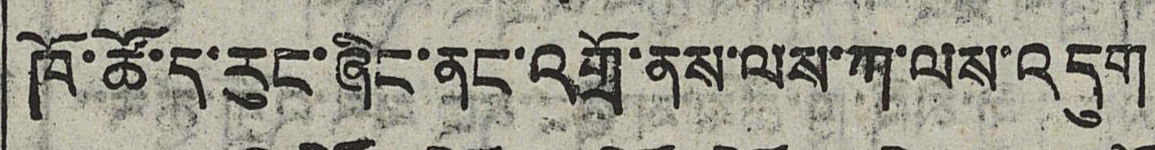ཁོ་ཚོ་ད་རུང་ཞིང་ནང་འགྲོ་ནས་ལས་ཀ་ལས་འདུག
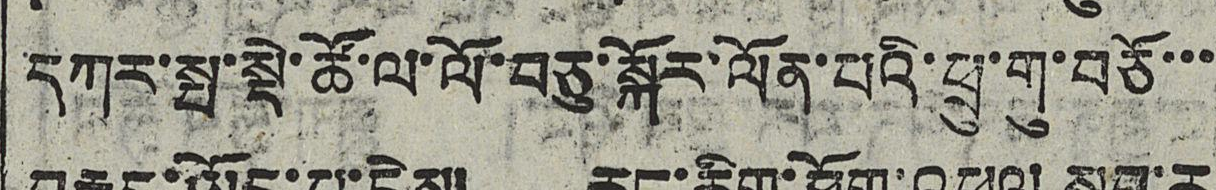དཀར་སྤ་སྡེ་ཚོ་ལ་ལོ་བཅུ་སྐོར་ལོན་པའི་ཕྲུ་གུ་བཅོ་་་
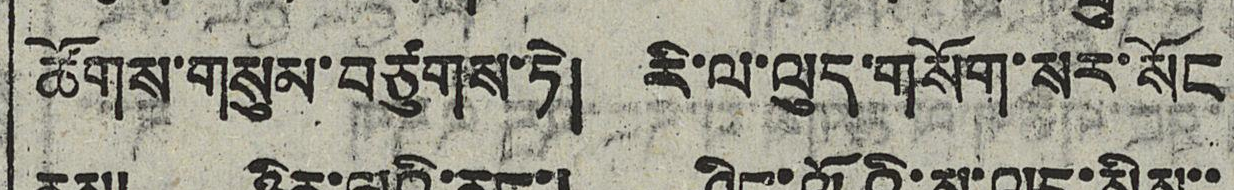ཚོགས་གསུམ་བཙུགས་ཏེ། རི་ལ་ལུད་གསོག་སར་སོང
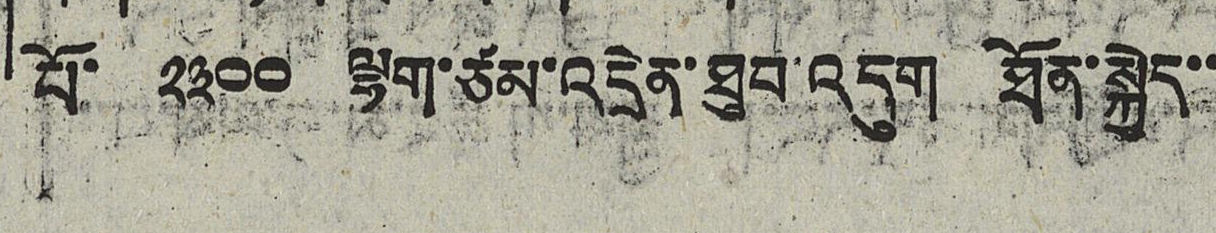པོ་ ༢༣༠༠ ལྷག་ཙམ་འདྲེན་ཐུབ་འདུག ཐོན་སྐྱེད་་
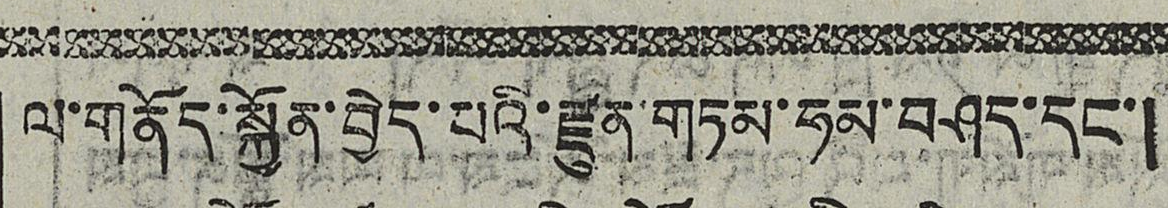གོད་སྐྱོན་བྱེད་འི་རེ་དན་ས་བསོད་དང་།
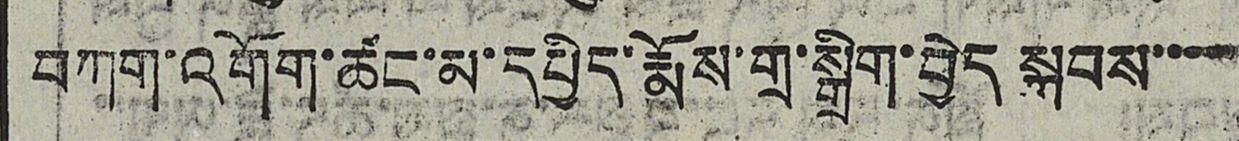བཀག་འགོག་ཚང་མ་དཔྱིད་རྨོས་གྲྭ་སྒྲིག་བྱེད སྐབས་་་་
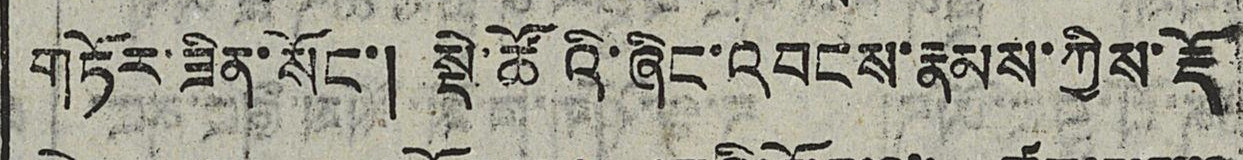གཏོར་ཟིན་སོང་། སྡེ་ཚོའི་ཞིང་འབངས་རྣམས་ཀྱིས་རྡོ
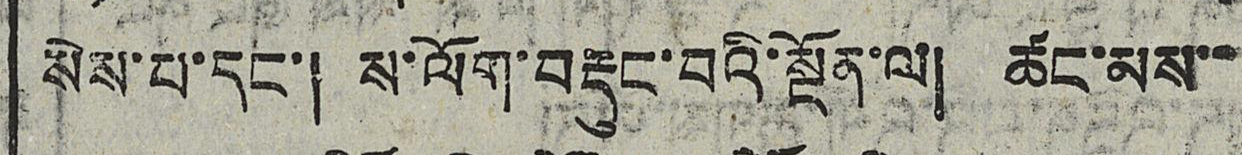སེས་པ་དང་། ས་ལོག་བརྡུང་བའི་སྔོན་ལ། ཚང་མས་་
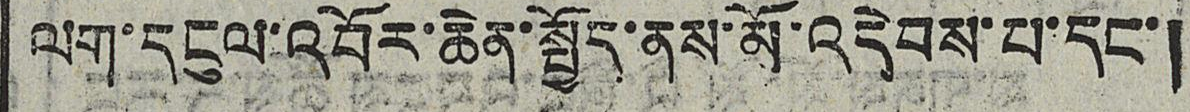ལག་དངུལ་འབོར་ཆེན་སྤྱོད་ནས་མོ་འདེབས་པ་དང་།
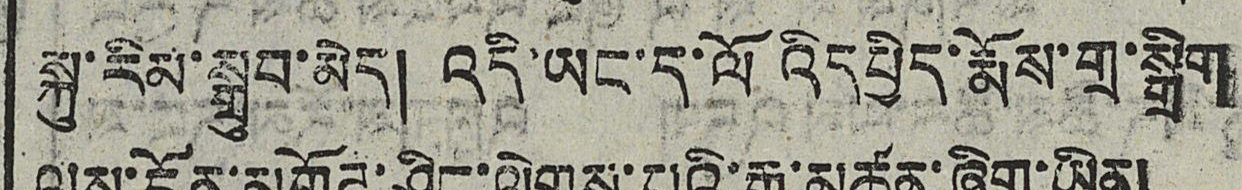སྐུ་རིམ་སྒྲུབ་མེད། འདི་ཡང་ད་ལོའིདཔྱིད་རྨོས་གྲ་སྒྲིག
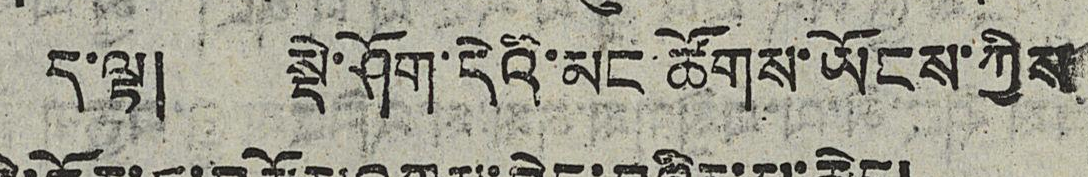ད་ལྟ། སྡེ་ཤོག་དེའི་མང་ཚོགས་ཡོངས་ཀྱིས
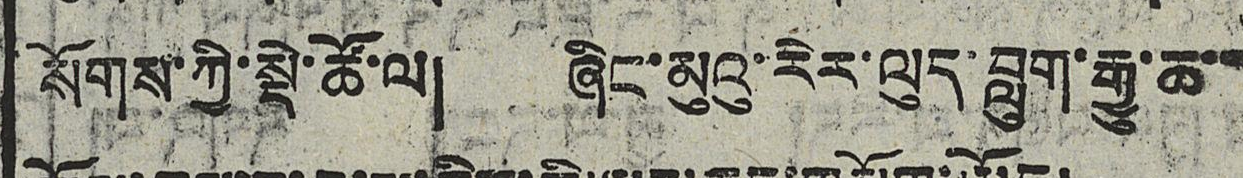སོགས་ཀྱི་སྡེ་ཚོ་ལ། ཞིང་མུའུ་རེར་ལུད་བླུག་རྒྱུ་ཆ་་
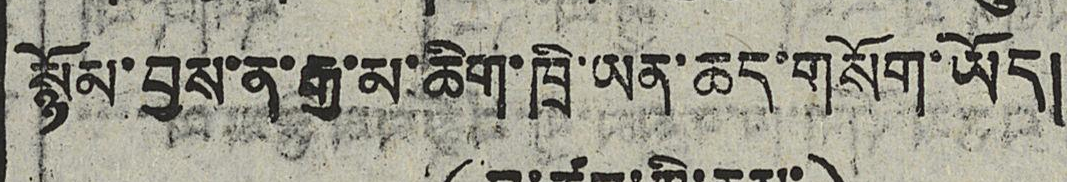སྙོམ་བྱས་ན་རྒྱ་མ་ཆིག་ཁྲི་ཡན་ཆད་གསོག་ཡོད།
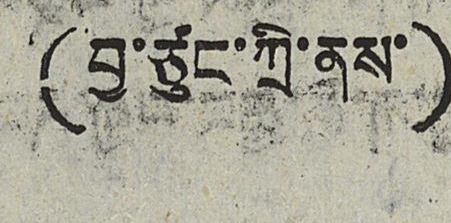(བྱ་ཙུང་ཀི་ནས་)
